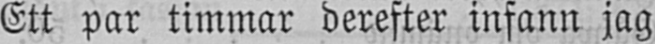Ett par timmar derefter infann jag
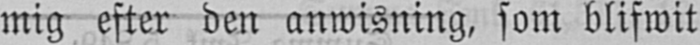mig efter den anwisning, som blifwit
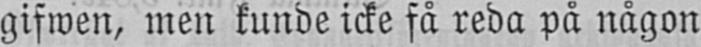gifwen, men kunde icke få reda på någon
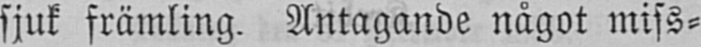sjuk främling. Antagande något miss-
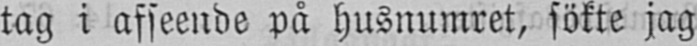tag i afseende på husnumret, sökte jag
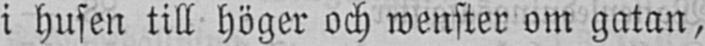i husen till höger och wenster om gatan,
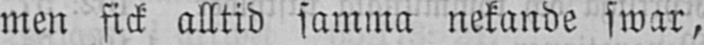men fick alltid samma nekande swar,
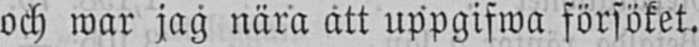och war jag nära ätt uppgifwa försöket.
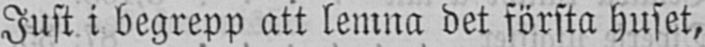Just i begrepp att lemna det första huset,
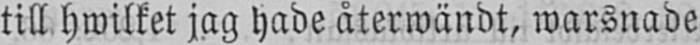till hwilket jag hade återwändt, warsnade
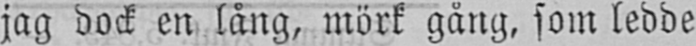jag dock en lång, mörk gång, som ledde
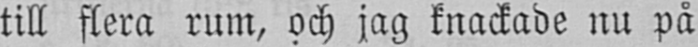till flera rum, och jag knackade nu på
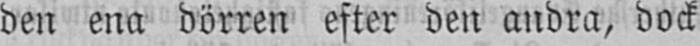den ena dörren efter den andra, dock
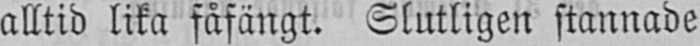alltid lika fåfängt. Slutligen stannade
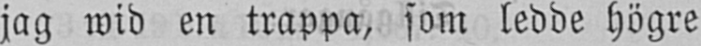jag wid en trappa, som ledde högre
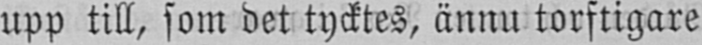upp till, som det tycktes, ännu torftigare
